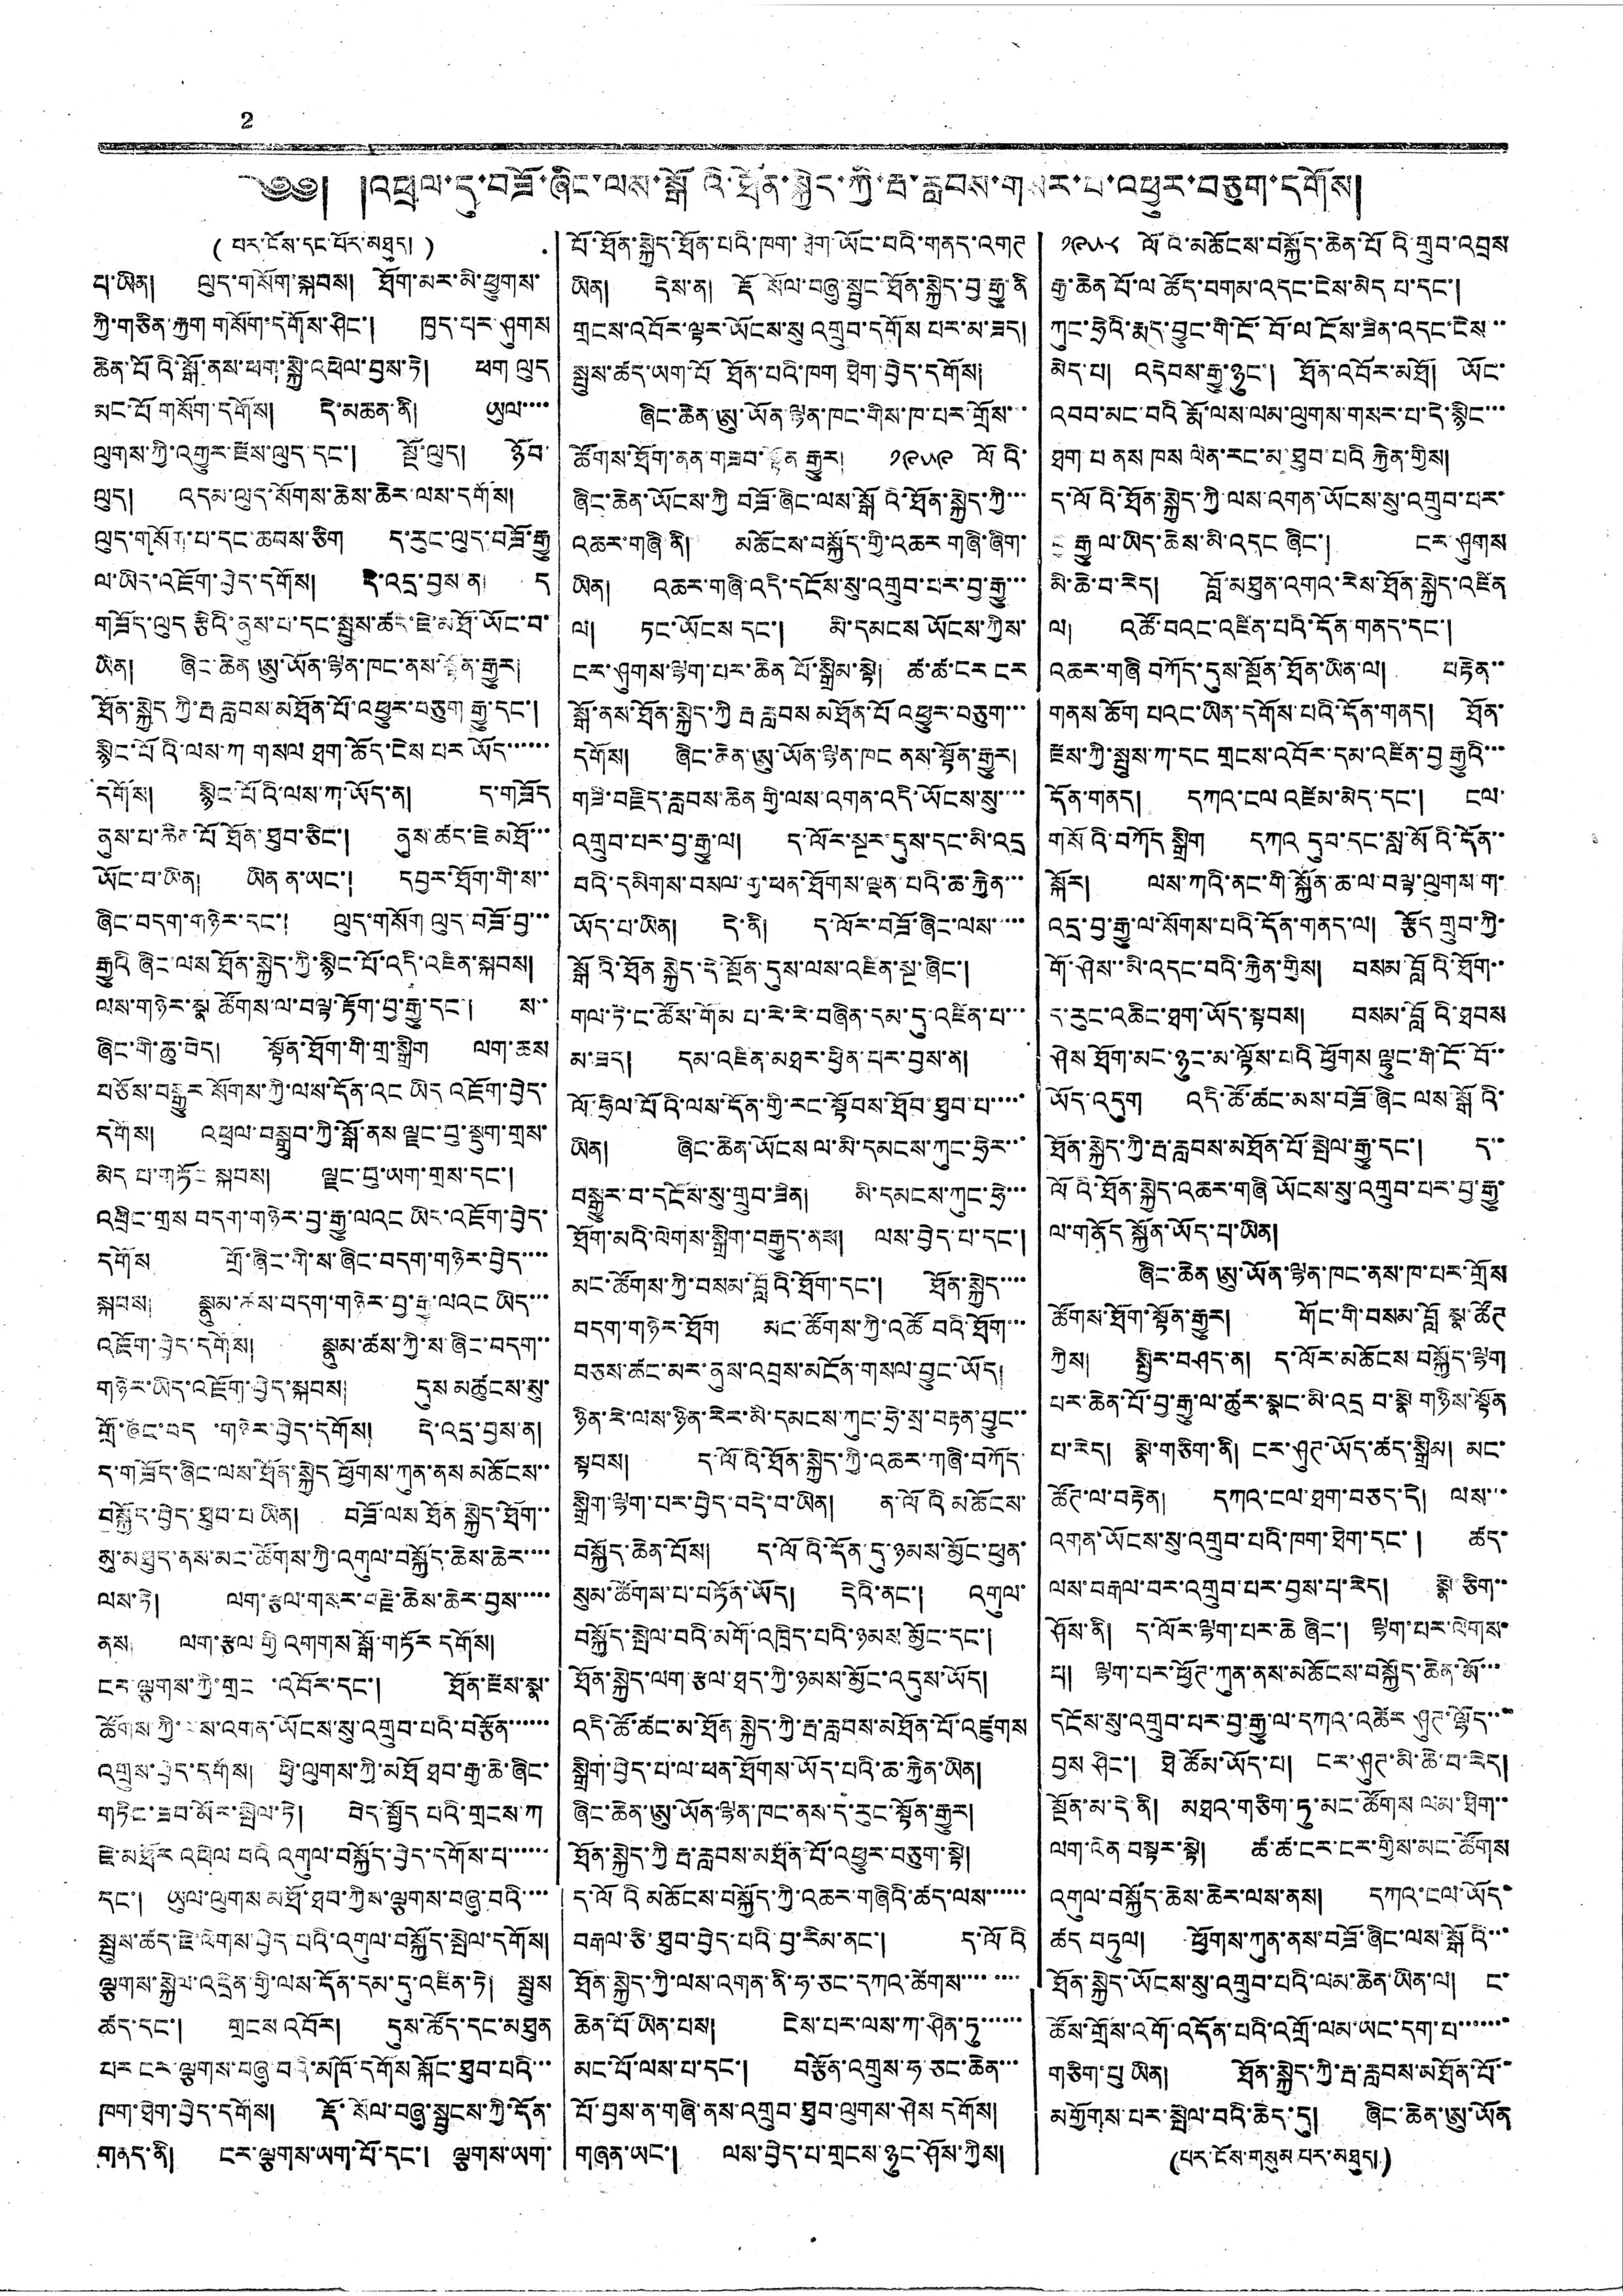2
༄༅། །འཕྲལ་དུ་བཟོ་ཞིང་ལས་སྒོའི་ཐོན་སྐྱེད་ཀྱི་རྦ་རླབས་གསར་པ་འཕྱུར་བཅུག་དགོས།
( པར་ངོས་དང་པོར་མཐུད། )
པ་ཡིན། ལུད་གསོག་སྐབས། ཐོག་མར་མི་ཕྱུགས་
ཀྱི་གཅིན་རྐྱག གསོག་དགོས་ཤིང་། ཁྱད་པར་ཤུགས
ཆེན་པོའི་སྒོ་ནས་ཕག་སྐྱེ་འཕེལ་བྱས་ཏེ། ཕག ལུད
མང་པོ གསོག་དགོས། དེ་མཆན་ནི། ཡུལ་་་་
ལུགས་ཀྱི་འགྱུར་རྫས་ལུད་དང་། སྔོ་ལུད། ཉོབ་
ལུད། འདམ་ལུད་སོགས་ཆེས་ཆེར་ལས་དགོས།
ལུད་གསོག་པ་དང་ཆབས་ཅིག ད་རུང་ལུད་བཟོ་རྒྱུ
ལ་ཡིད་འཇོག་བྱེད་དགོས། དེ་འདྲ་བྱས་ན། ད
གཟོད་ལུད རྩིའི་ནུས་པ་དང་སྤུས་ཚར་ཇེ་མཐོ་ཡོང་བ་
ཡིན། ཞིང་ཆེན ཨུ་ཡོན་ལྷན་ཁང་ནས་སྟོན་རྒྱུར།
ཐོན་སྐྱེད ཀྱི་རྦ རླབས་མཐོན་པོ་འཕྱུར་བཅུག རྒྱུ་དང་།
སྙིང་པོའི་ལས་ཀ གསལ ཐག་ཆོད་ངེས པར ཡོད་་་་་་
དགོས། སྙིང་པོའི་ལས་ཀ་ཡོད་ན། ད་གཟོད
ནུས་པ་ཆིན་པོ ཐོན་ཐུབ་ཅིང་། ནུས་ཚད་ཇེ མཐོ་་་
ཡོང་བ་ཡིན། ཡིན་ན་ཡང་། དབྱར་ཐོག་གི་ས་་
ཞིང་བདག་གཉེར་དང་། ལུད་གསོག ལུད་བཟོ་བྱ་་་
རྒྱུའི ཞིང་ལས ཐོན་སྐྱེད་ཀྱི་སྙིང་པོ་འདི་འཛིན་སྐབས།
ལས་གཉེར་སྣ ཚོགས་ལ་བལྟ་རྟོག་བྱ་རྒྱུ་དང་། ས་་
ཞིང་གི་ཆུ་བེད། སྟོན་ཐོག་གི་གྲ་སྒྲིག ལག་ཆས
བཅོས་བསྒྱུར སོགས་ཀྱི་ལས་དོན་འང ཡིད འཇོག་བྱེད་
དགོས། འཕྲལ་བསྒྲུབ་ཀྱི་སྒོ་ནས ལྗང་བུ་སྡུག་གྲས་
མེད པ་གཏོང སྐབས། ལྗང་བུ་ཡག་གྲས་དང་།
འབྲིང་གྲས བདག་གཉེར་བྱ་རྒྱུ་ལའང ཡིད་འཇོག་བྱེད་
དགོས། གྲོ་ཞིང་གི་ས་ཞིང་བདག་གཉེར་བྱེད་་་་
སྐབས། སྣུམ་ཚས་བདག་གཉེར་བྱ་རྒྱུ་ལའང ཡིད་་་
འཇོག་བྱེད་དགོས། སྣུམ་ཚས་ཀྱི་ས་ཞིང་བདག་་
གཉེར་ཡིད་འཇོག་བྱེད་སྐབས། དུས མཚུངས་སུ་
གྲོ་ཞིང་བདག་གཉེར་བྱེད་དགོས། དེ་འདྲ་བྱས་ན།
ད་གཟོད་ཞིང་ལས་ཐོན་སྐྱེད ཕྱོགས་ཀུན་ནས མཆོངས་་
བསྐྱོད་བྱེད་ཐུབ་པ ཡིན། བཟོ་ལས ཐོན་སྐྱེད་ཐོག་་
མུ་མཐུད་ནས་མང་ཚོགས་ཀྱི་འགུལ་བསྐྱོད་ཆེས་ཆེར་་་་
ལས་ཏེ། ལག་རྩལ་གསར་བརྗེ་ཆེས་ཆེར་བྱས་་་་་
ནས། ལག་རྩལ་གྱི འགགས་སྒོ་གཏོར དགོས།
ངར་ལྕགས་ཀྱི་གྲངས་འབོར་དང་། ཐོན་རྫས་སྣ་
ཚོགས་ཀྱི་ལས་འགན་ཡོངས་སུ་འགྲུབ་པའི་བརྩོན་་་་་་
འགྲུས་བྱེད་དགོས། ཕྱི་ལུགས་ཀྱི་མཐོ ཐབ་རྒྱ་ཆེ་ཞིང་
གཏིང་ཟབ་མོར་སྤེལ་ཏེ། བེད་སྤྱོད པའི་གྲངས་ཀ
ཇེ་མཐོར འཕེལ་བའི འགུལ་བསྐྱོད་བྱེད་དགོས་པ་་་་་་
དང་། ཡུལ་ལུགས མཐོ་ཐབ་ཀྱིས་ལྕགས་བཞུ་བའི་་་་
སྤུས་ཚད་ཇེ་ལེགས་བྱེད པའི་འགུལ་བསྐྱོད་སྤེལ་དགོས།
ལྕགས་སྐྱེལ་འདྲེན་གྱི་ལས་དོན་དམ་དུ་འཛིན་ཏེ། སྤུས
ཚད་དང་། གྲངས འབོར། དུས་ཚོད་དང་མཐུན
པར ངར་ལྕགས་བཞུ་བའི་མཁོ་དགོས སྐོང་ཐུབ་པའི་་་
ཁག་ཐེག་བྱེད་དགོས། རྡོ་སོལ་བཞུ་སྦྱངས་ཀྱི་དོན་
གནད་ནི། ངར་ལྕགས་ཡག་པོ་དང་། ལྕགས་ཡག་
པོ་ཐོན་སྐྱེད་ཐོན་པའི་ཁག་ཐེག་ཡོང་བའི་གནད་འགཊ
ཡིན། དེས་ན། རྡོ སོལ་བཞུ་སྦྱང་ཐོན་སྐྱེད་བྱ་རྒྱུ་ནི
གྲངས་འབོར་ལྟར་ཡོངས་སུ འགྲུབ་དགོས པར་མ་ཟད།
སྤུས་ཚད་ཡག་པོ ཐོན་པའི་ཁག ཐེག་བྱེད་དགོས།
ཞིང་ཆེན་ཨུ་ཡོན་ལྷན་ཁང་གིས་ཁ་པར་གྲོས་་་
ཚོགས་ཐོག་ནན་གཟབ་སྟོན རྒྱུར། ༡༩༥༩ ལོའི་
ཞིང་ཆེན་ཡོངས་ཀྱི བཟོ་ཞིང་ལས་སྒོའི་ཐོན་སྐྱེད་ཀྱི་་་
འཆར་གཞི་ནི། མཆོངས་བསྐྱོད་གྱི་འཆར གཞི་ཞིག་
ཡིན། འཆར་གཞི་འདི་དངོས་སུ་འགྲུབ་པར་བྱ་རྒྱུ་་་
ལ། ཏང་ཡོངས དང་། མི་དམངས ཡོངས་ཀྱིས་
ངར་ཤུགས་ལྷག་པར་ཆེན པོ་སྒྲིམ་སྟེ། ཚ་ཚ་ངར་ངར
སྒོ་ནས་ཐོན་སྐྱེད་ཀྱི རྦ རླབས མཐོན་པོ འཕྱུར་བཅུག་་་
དགོས། ཞིང་ཆེན་ཨུ་ཡོན་ལྷན་ཁང ནས་སྟོན་རྒྱུར།
གཟི་བརྗིད་རླབས་ཆེན གྱི་ལས་འགན་འདི་ཡོངས་སུ་་་་
འགྲུབ་པར་བྱ་རྒྱུ་ལ། ད་ལོར་སྔར་དུས་དང་མི་འདྲ
བའི་དམིགས་བསལ་གྱ་ཕན་ཐོགས་ལྡན་པའི་ཆ་རྐྱེན་་་
ཡོད་པ་ཡིན། དེ་ནི། ད་ལོར་བཟོ་ཞིང་ལས་་་་་
སྒོའི་ཐོན སྐྱེད་དེ་སྔོན་དུས་ལས་འཛིན་སྔ་ཞིང་།
གལ་ཏེ་ང་ཚོས་གོམ པ་རེ་རེ་བཞིན་དམ་དུ་འཛིན་པ་་་
མ་ཟད། དམ་འཛིན་མཐར་ཕྱིན་པར་བྱས་ན།
ལོ་ཧྲིལ་པོའི་ལས་དོན་གྱི་རང་སྟོབས་ཐོབ་ཐུབ་པ་་་་་
ཡིན། ཞིང་ཆེན་ཡོངས ལ་མི་དམངས་ཀུང་ཧྲེར་་་
བསྒྱུར་བ་དངོས་སུ་གྲུབ་ཟིན། མི་དམངས་ཀུང་ཧྲེ་་་
ཐོག་མའི་ལེགས་སྒྲིག་བརྒྱུད་ནས། ལས་བྱེད་པ་དང་།
མང་ཚོགས་ཀྱི་བསམ་བློའི་ཐོག་དང་། ཐོན་སྐྱེད་་་་
བདག་གཉེར་ཐོག མང་ཚོགས་ཀྱི་འཚོ བའི་ཐོག་་་
བཅས་ཚང་མར་ནུས་འབྲས་མངོན་གསལ་བྱུང་ཡོད།
ཉིན་རེ་ལས་ཉིན་རེར་མི་དམངས་ཀུང་ཧྲེ་སྲ་བརྟན་བྱུང་་
སྟབས། ད་ལོའི་ཐོན་སྐྱེད་ཀྱི་འཆར་གཞི་བཀོད་
སྒྲིག་ལྷག་པར་བྱེད་བདེ་བ་ཡིན། ན་ལོའི མཆོངས་
བསྐྱོད་ཆེན་པོས། ད་ལོའི་དོན་དུ་ཉམས་མྱོང་ཕུན་
སུམ་ཚོགས་པ་བཏོན་ཡོད། དེའི་ནང་། འགུལ་
བསྐྱོད་སྤེལ་བའི་མགོ་འཁྲིད་པའི་ཉམས མྱོང་དང་།
ཐོན་སྐྱེད་ལག་རྩལ་ཐད་ཀྱི་ཉམས་མྱོང་འདུས་ཡོད།
འདི་ཚོ་ཚང་མ་ཐོན སྐྱེད་ཀྱི་རྦ་རླབས་མཐོན་པོ་འཛུགས
སྒྲིག་བྱེད་པ་ལ་ཕན་ཐོགས་ཡོད་པའི་ཆ་རྐྱེན་ཡིན།
ཞིང་ཆེན་ཨུ་ཡོན་ལྷན་ཁང་ནས་ད་རུང་སྟོན་རྒྱུར།
ཐོན་སྐྱེད་ཀྱི་རྦ་རླབས་མཐོན་པོ་འཕྱུར་བཅུག་སྟེ།
ད་ལོའི མཆོངས་བསྐྱོད་ཀྱི་འཆར་གཞིའི་ཚད་ལས་་་་་་
བརྒལ་ཅི་ཐུབ་བྱེད་པའི་བྱ་རིམ་ནང་། ད་ལོའི
ཐོན་སྐྱེད་ཀྱི་ལས་འགན་ནི་ཧ་ཅང་དཀའ་ཚེགས་་་་་་་་
ཆེན་པོ་ཡིན་པས། ངེས་པར་ལས་ཀ་ཤིན་ཏུ་་་་་་
མང་པོ་ལས་པ་དང་། བརྩོན་འགྲུས་ཧ་ཅང་ཆེན་་་
པོ་བྱས་ན་གཞི་ནས་འགྲུབ་ཐུབ་ལུགས་ཤེས དགོས།
གཞན་ཡང་། ལས་བྱེད་པ་གྲངས་ཉུང་ཤོས་ཀྱིས།
༡༩༥༨ ལོའི་མཆོངས་བསྐྱོད་ཆེན་པོའི་གྲུབ་འབྲས
རྒྱ་ཆེན པོ་ལ ཚོད་བགམ་འདང་ངེས་མེད པ་དང་།
གུང་ཧྲེའི་རྨད་བྱུང་གི་ངོ་བོ་ལ ངོས་ཟིན་འདང་ངེས་་
མེད་པ། འདེབས་རྒྱུ་ཉུང་། ཐོན་འབོར་མཐོ། ཡོང་
འབབ་མང་བའི རྨོ་ལས་ལམ་ལུགས་གསར་པ་དེ་སྙིང་་་
ཐག པ ནས ཁས ལེན་རང་མ་ཐུབ་པའི རྐྱེན་གྱིས།
ད་ལོའི་ཐོན་སྐྱེད་ཀྱི་ལས་འགན་ཡོངས་སུ་འགྲུབ་པར་
བྱ་རྒྱུ ལ་ཡིད་ཆེས་མི་འདང་ཞིང་། ངར་ཤུགས
མི་ཆེ་བ་རེད། བློ་མཐུན་འགའ་རེས་ཐོན་སྐྱེད་འཛིན
ལ། འཚོ་བའང་འཛིན་པའི་དོན་གནད་དང་།
འཆར་གཞི བཀོད་དུས་སྔོན་ཐོན་ཡིན་ལ། བརྟེན་་
གནས་ཆོག པའང་ཡིན་དགོས་པའི་དོན་གནད། ཐོན་
རྫས་ཀྱི་སྤུས་ཀ་དང གྲངས་འབོར་དམ་འཛིན་བྱ རྒྱུའི་་་
དོན་གནད། དཀའ་ངལ འཛེམ་མེད་དང་། ངལ་
གསོའི་བཀོད སྒྲིག དཀའ དུབ་དང་སླ་མོའི་དོན་་
སྐོར། ལས་ཀའི་ནང་གི་སྐྱོན་ཆ་ལ་བལྟ་ལུགས་ག་
འདྲ་བྱ་རྒྱུ་ལ་སོགས་པའི་དོན་གནད་ལ། རྩོད གྲུབ་ཀྱི་
གོ་ཤེས་་མི་འདང་བའི་རྐྱེན་གྱིས། བསམ་བློའི་ཐོག་་
ད་རུང་འཆིང་ཐག་ཡོད་སྟབས། བསམ་བློའི་ཐབས
ཤེས ཐོག་མང་ཉུང་མ་ལྟོས་པའི ཕྱོགས ལྷུང་གི་ངོ་བོ་་
ཡོད་འདུག འདི་ཚོ་ཚང་མས་བཟོ་ཞིང ལས་སྒོའི་
ཐོན་སྐྱེད་ཀྱི་རྦ་རླབས་མཐོན་པོ་སྤེལ་རྒྱུ་དང་། ད་་
ལོའི་ཐོན་སྐྱེད་འཆར་གཞི ཡོངས་སུ་འགྲུབ་པར་བྱ་རྒྱུ་
ལ་གནོད སྐྱོན་ཡོད་པ་ཡིན།
ཞིང་ཆེན ཨུ་ཡོན་ལྷན་ཁང་ནས་ཁ་པར་གྲོས
ཚོགས་ཐོག་སྟོན་རྒྱུར། གོང་གི་བསམ་བློ སྣ་ཚོཊ
ཀྱིས། སྤྱི་བཤད་ན། ད་ལོར་མཆོངས་བསྐྱོད་ལྷག
པར་ཆེན་པོ་བྱ་རྒྱུ་ལ་ཚུར་སྣང་མི་འདྲ བ་སྣེ གཉིས་སྟོན
པ་རེད། སྣེ་གཅིག་ནི། ངར་ཤུཊ་ཡོད་ཚད་སྒྲིམ། མང་
ཚོཊ་ལ་བརྟེན། དཀའ་ངལ་ཐག་བཅད་དེ། ལས་་་
འགན་ཡོངས་སུ་འགྲུབ་པའི་ཁག་ཐེག་དང་། ཚད་
ལས་བརྒལ་བར་འགྲུབ་པར་བྱས་པ་རེད། སྣེ་ཅིག་་
ཤོས་ནི། ད་ལོར་ལྷག་པར་ཆེ ཞིང་། ལྷག་པར་ལེགས་
པ། ལྷག་པར་ཕྱོཊ་ཀུན་ནས་མཆོངས་བསྐྱོད་ཆེན་མོ་་་
དངོས་སུ་འགྲུབ་པར་བྱ་རྒྱུ་ལ་དཀའ་འཚེར ཤུཊ་ལྷོད་་་
བྱས ཤིང་། ཐེ་ཚོམ་ཡོད་པ། ངར་ཤུཊ་མི་ཆེ་བ་རེད།
སྔོན་མ་དེ་ནི། མཐའ་གཅིག་ཏུ་མང་ཚོགས ལམ་ཐིག་་
ལག་ལེན་བསྟར་སྟེ། ཚ་ཚ་ངར་ངར་གྱིས་མང་ཚོགས
འགུལ་བསྐྱོད་ཆེས་ཆེར་ལས་ནས། དཀའ་ངལ་ཡོད་
ཚད བཏུལ། ཕྱོགས་ཀུན་ནས་བཟོ་ཞིང་ལས་སྒོའི་་་
ཐོན་སྐྱེད་ཡོངས་སུ་འགྲུབ་པའི་ལམ་ཆེན་ཡིན་ལ། ང་
ཚོས་གྲོས་འགོ་འདོན་པའི་འགྲོ་ལམ་ཡང་དག་པ་་་་་་་
གཅིག་པུ ཡིན། ཐོན་སྐྱེད་ཀྱི་རྦ་རླབས་མཐོན་པོ་་
མགྱོགས་པར་སྤེལ་བའི་ཆེད་དུ། ཞིང་ཆེན་ཨུ་ཡོན
(པར་ངོས་གསུམ པར་མཐུད།)
